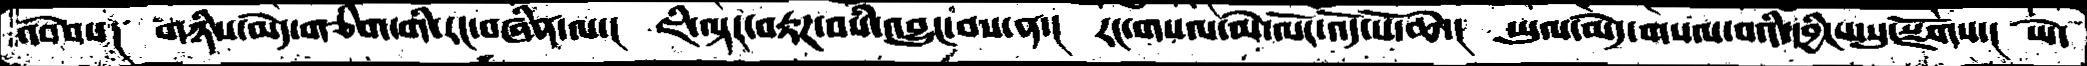འབེབས།   གཉིས་མེད་གཅིག་གི་རང་བཞིན་ལ་།  ཇི་ལྟར་བརྟཌ་བསཾ་འབྱུང་བས་ན་།  རང་གསལ་མེ་ལོང་འོད་པོ་ཆེ་།  ཡུལ་མེད་གསལ་བའི་དབྱིངས་སུ་སྫོགས་།  ཡེ་
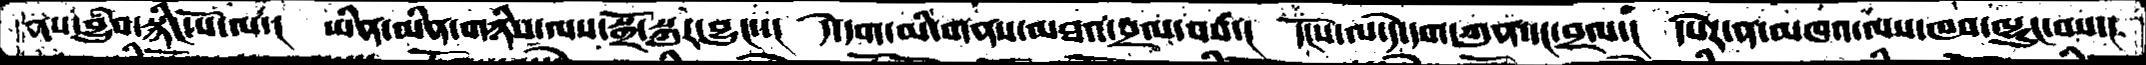ནས་བྱུཾབ་སྙིང་པོ་ལ་།  ཡིན་མིན་གཉིས་ལས་སྒྲོ་སྐུར་བྱུང་་།  དེ་དག་མི་གནས་མཐའ་བྲལ་བས་།  དངོས་ལ་དེ་དག་ཀུན་དང་བྲལ་།  དཔེར་ན་མཁའ་ལས་ཁབ་ལྷུང་བས་།
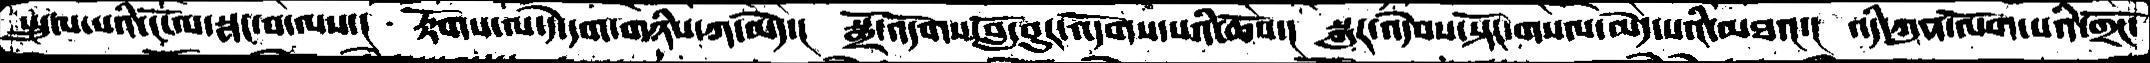སྤྲུལ་པའི་ངོ་ལ་སྣང་བ་ལས་།  རྟོགས་ལ་དེ་དག་གཉིས་ཀ་མེད་།  སྒྲོ་འདོགས་བློ་བུར་འདོགས་པའི་ཆོས་།  སྐུར་འདེབས་སྟོང་གསལ་མེད་པའི་མཐའ་།  འདི་ཀུན་ལོག་པའི་གྲོང་
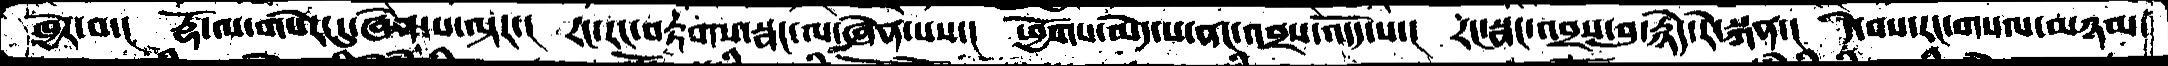ཁྱེར་བ་།  རྡོ་ལ་གསེར་དུ་ཞེན་པ་ལྟར་།  རང་རང་བརྟགས་སྣང་ལ་ཞེན་པས་།  ཕྱོགས་མེད་པ་ནང་འབྲས་འདོད་པ་།  རང་སྣང་འབྲས་བུ་རྙེད་རེ་སྐན་།  དེ་བས་རང་གསལ་མཉམ་
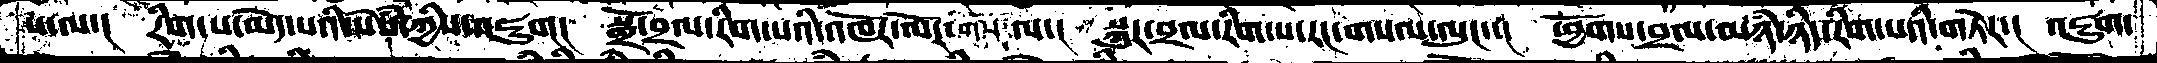པ་ལ་།  རིག་པ་མེད་པའི་སེཾས་ཀྱིས་འཇུག།  སྒྲོ་བྲལ་རིག་པའི་འཁོར་ལོར་གསལ་།  སྐུར་བྲལ་རིག་པ་རང་གསལ་ལུང་་།  ཕྱོགས་བྲལ་མཉཾ་ཉིད་རིག་པའི་གཏེར་།  འཇུག་
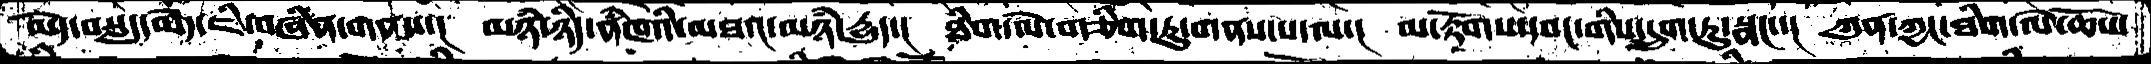མེད་བསླད་མེད་ཇི་བཞིན་གནས་།  མཉཾ་ཉིད་ནཾཁའི་མཐའ་མཉཾ་དྱུད་།  ཐིག་ལེ་གཅིག་ཏུ་གནས་པ་ལ་།  མ་རྟོགས་དབང་གིས་དྲུག་ཏུ་སྣང་་།  ཀུན་ཀྱང་ཐིག་ལེ་ཆོས་
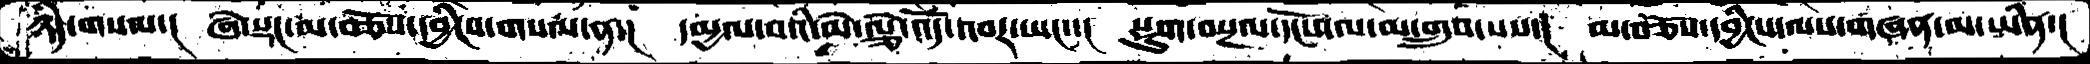ཉིད་གསལ་།  ཞེ་སྡང་མ་བཅོས་དབྱིངས་གསལ་ན་།  དམྱལ་བའི་མེ་ལྕེ་འོད་འབར་ཡང་་།  སྡུག་བསྔལ་དངོས་ལ་མ་གྲུབ་པས་།  མ་བཅོས་དབྱིངས་ལས་གཞན་མ་ཡིན་།
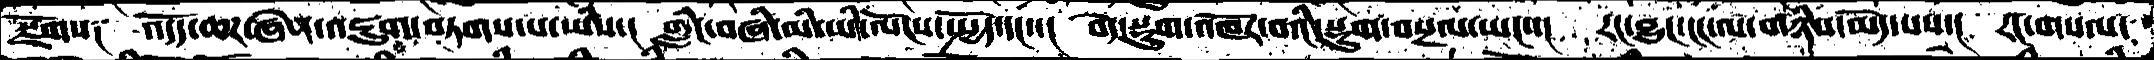སྫོགས༑   འདོད་ཆཌ་ཞེན་འཇུག་བཏགས་པ་ཡིས་།  གླིང་བཞི་མི་ཡི་ལོངས་སྤྱོད་དང་་།  བདེ་སྡུག་འཁོར་བའི་སྡུག་བསྔལ་ཡངས་།  རང་བྱུང་ངང་ལ་གཉིས་མེད་པས་།  རང་གསལ་
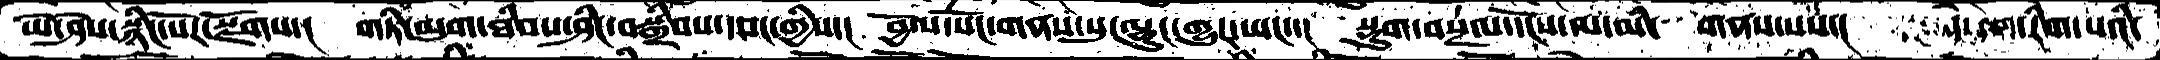ཡེ་ཤེས་སྙིང་པོར་སྫོགས་།  གཏི་མུག་ཐིབས་ཤིང་བསྒྲིབས་དབང་གྱིས་།  བྱོལ་སོང་གནས་སུ་ལྷུང་གྱུར་ཡང་་།  སྡུག་བསྔལ་དངོས་ལ་མི་  གནས་པས་།  དེ་དག་རིག་པའི་
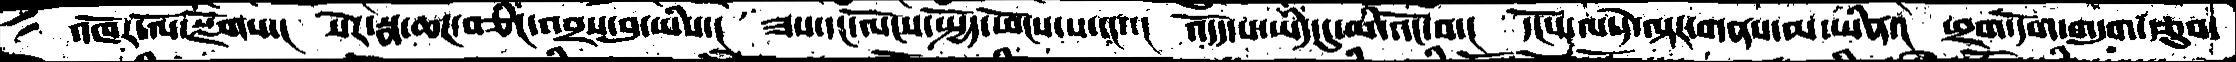འཁོར་ལོ་སྫོགས་།  སེར་སྣ་ཆཌ་བཅིང་འབྲས་བུ་ཡིས་།  ཟས་དང་ལོངས་སྤྱོད་ཕོངས་པ་དང་་།  འདོད་པ་ཡིད་དུ་མི་འོང་བ་།  དངོས་ལ་དེ་ལྟར་གནས་མ་ཡིན་།  ཕྲག་དོག་གདུག་རྩུབ་
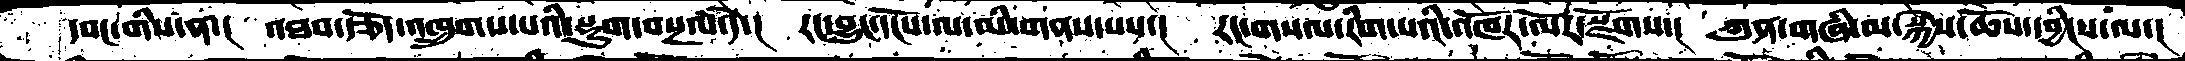དབང་གིས་ན་།  འཐབ་རྩོད་འཁྲུགས་པའི་སྡུག་བསྔལ་དེ་།  རང་བྱུང་དངོས་ལ་མི་གནས་པས་།  རང་གསལ་རིག་པའི་འཁོར་ལོར་སྫོགས་།  ཀུན་གཞི་མ་སྐྱེས་ཆོས་དབྱིངས་ལ་།
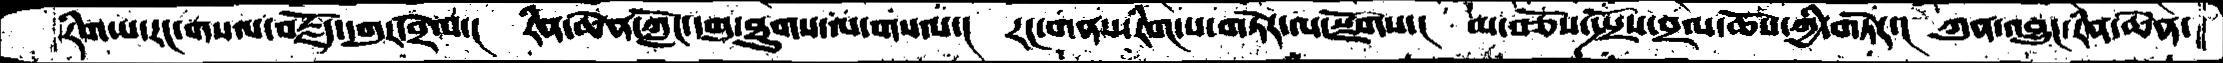རིག་པ་རང་གསལ་བརྗོད་དགུར་བྲེལ་།  རིན་ཆེན་ཀློང་དགུ་ཐུགས་ལ་གསལ་།  རང་གནས་རིག་པ་གཏེར་ལ་སྫོགས་།  མ་བཅོས་སྤྲོས་བྲལ་ཆོས་ཀྱི་གཏེར་།  ཀུན་འབྱུང་རིན་ཆེན་
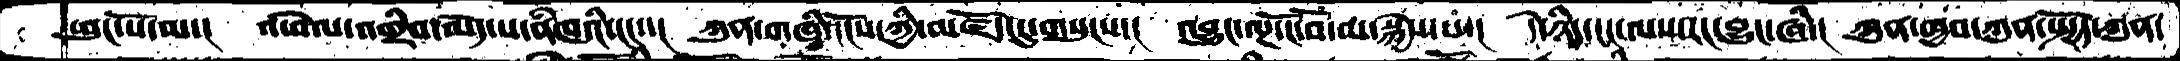ཕུང་པོ་ལ་།  འཕེལ་འགྲིབ་མེད་པ་ནཾཁའི་ངང་་།  ཀུན་གཞི་དངོས་ཀྱི་མཛོད་དུ་གསུངས་།  འབྱུང་ལྔ་ངོ་བོ་མ་སྐྱེས་པ་།  དེ་ཉིད་ངང་ལས་རང་བྱུང་ཞི་།  ཀུན་ཁྱབ་ཀུན་སྤྱོད་ཀུན་
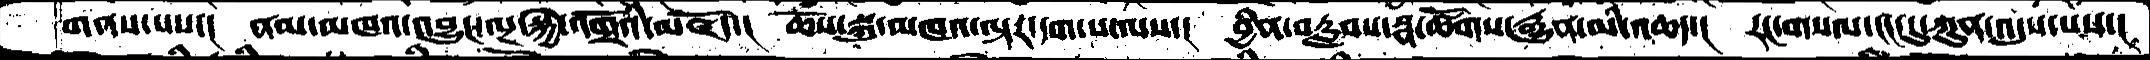གནས་པས་།   ནམ་མཁའ་འབྱུང་ལྔ་སྐྱེ་འགྲོའི་མཛོད་།  ཆོས་སྐུ་མཁའ་ལྟར་དག་པ་ལས་།  བྱིན་བརླབས་སྣ་ཚོགས་རྒྱུན་མི་འཆད་།  རང་གསལ་ངང་དུ་ཀུན་འདུས་པས་།
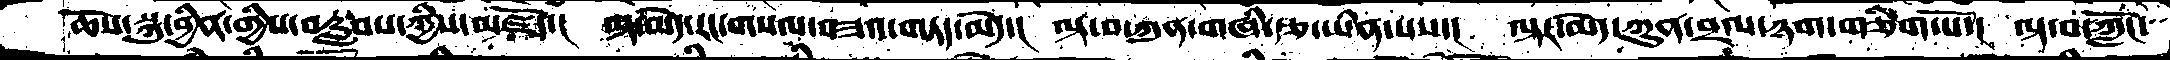ཆོས་སྐུ་བྱིན་གྱིས་བརླབས་ཀྱིས་མཛོད་།  ལྟ་མེད་རང་གསལ་བཟའ་གཏད་མེད་།  ལྟ་བ་ཀུན་གཞི་རྩ་ཡིན་པས་།  ལྟར་མེད་ཀུན་བྲལ་ཉག་གཅིག་པོ་།  ལྟ་བ་ཀློང་
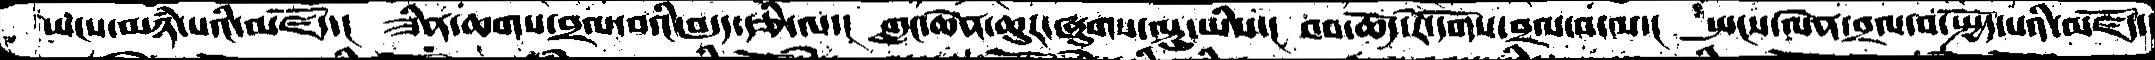ཡངས་མཉཾ་པའི་མཛོད་།  ཟིན་ཆགས་བྲལ་བའི་བདུད་རྩི་ལ་།  གླང་ཆེན་ཆུར་ཞུགས་ལྟུ་ཡིས་།  བབ་ཆོད་རེ་དོགས་བྲལ་བ་ལ་།  སྤངས་ལེན་བྲལ་བ་སྤྱོད་པའི་མཛོད་།
